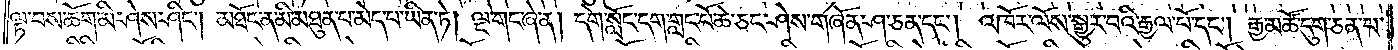ལྟ་བས་ཆོག་མི་ཤེས་ཤིང༌། མཐོང་ན་མི་མཐུན་པ་མེད་པ་ཡིན་ཏེ། ལྔ་གང་ཞེ་ན། དགེ་སློང་དག་གླང་པོ་ཆེ་ཅང་ཤེས་གཞོན་ཤ་ཅན་དང༌། འཁོར་ལོས་སྒྱུར་བའི་རྒྱལ་པོ་དང༌། རྒྱ་མཚོ་དུག་ཅན་པ་
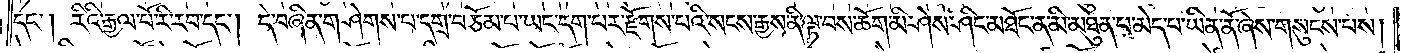དང༌། རིའི་རྒྱལ་པོ་རི་རབ་དང༌། དེ་བཞིན་གཤེགས་པ་དགྲ་བཅོམ་པ་ཡང་དག་པར་རྫོགས་པའི་སངས་རྒྱས་ནི་ལྟ་བས་ཆོག་མི་ཤེས་ཤིང་མཐོང་ན་མི་མཐུན་པ་མེད་པ་ཡིན་ནོ་ཞེས་གསུངས་པས།
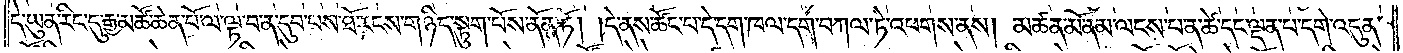དེ་ཡུན་རིང་དུ་རྒྱ་མཚོ་ཆེན་པོ་ལ་ལྟ་བ་ན་དུབ་པས་ཐོ་རངས་གཉིད་སྟུག་པོས་ནོན་ཏོ། །དེ་ནས་ཚོང་པ་དེ་དག་ཁལ་དག་བཀལ་ཏེ་འཕགས་ནས། མཚན་མོ་ནམ་ལངས་པ་ན་ཚེ་དང་ལྡན་པ་དགེ་འདུན་
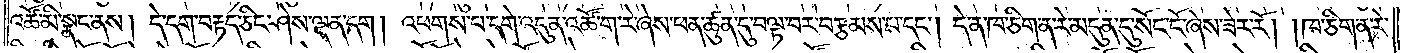འཚོ་མི་སྣང་ནས། དེ་དག་བརྟད་ཅིང་ཤེས་ལྡན་དག། འཕགས་པ་དགེ་འདུན་འཚོ་ག་རེ་ཞེས་ཕན་ཚུན་དུ་བལྟ་བར་བརྩམས་པ་དང༌། དེ་ན་ཁ་ཅིག་ན་རེ་མདུན་དུ་སོང་ངོ་ཞེས་ཟེར་རོ། །ཁ་ཅིག་ན་རེ་
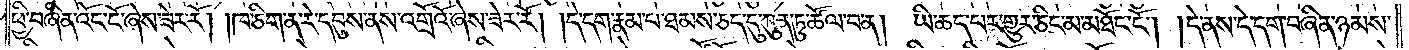ཕྱི་བཞིན་འོང་ངོ་ཞེས་ཟེར་རོ། །ཁ་ཅིག་ན་རེ་དབུས་ནས་འགྲོའོ་ཞེས་ཟེར་རོ། །དེ་དག་རྣམ་པ་ཐམས་ཅད་དུ་ཀུན་ཏུ་ཚོལ་བ་ན། ཡི་ཆད་པར་གྱུར་ཅིང་མ་མཐོང་ངོ༌། །དེ་ནས་དེ་དག་བཞིན་ཉམས་
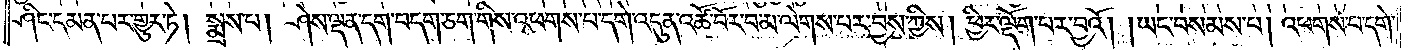ཤིང་དམན་པར་གྱུར་ཏེ། སྨྲས་པ། ཤེས་ལྡན་དག་བདག་ཅག་གིས་འཕགས་པ་དགེ་འདུན་འཚོ་བོར་བ་མ་ལེགས་པར་བྱས་ཀྱིས། ཕྱིར་ལྡོག་པར་བྱའོ། །ཡང་བསམས་པ། འཕགས་པ་དགེ་
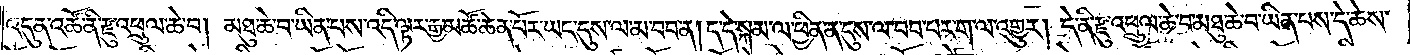འདུན་འཚོ་ནི་རྫུ་འཕྲུལ་ཆེ་བ། མཐུ་ཆེ་བ་ཡིན་པས་འདི་ལྟར་རྒྱ་མཚོ་ཆེན་པོར་ཡང་དུས་ལ་མ་བབ་ན། ད་དེ་སྐམ་ལ་ཕྱིན་ན་དུས་ལ་བབ་པར་ག་ལ་འགྱུར། དེ་ནི་རྫུ་འཕྲུལ་ཆེ་བ་མཐུ་ཆེ་བ་ཡིན་པས་དེ་ཆེས་
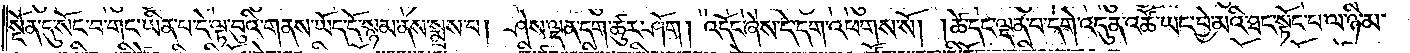སྔོན་དུ་སོང་བ་གང་ཡིན་པ་དེ་ལྟ་བུའི་གནས་ཡོད་དོ་སྙམ་ནས་སྨྲས་པ། ཤེས་ལྡན་དག་ཚུར་ཤོག། འདོང་ཞེས་དེ་དག་འཕགས་སོ། །ཚེ་དང་ལྡན་པ་དགེ་འདུན་འཚོ་ཡང་བྱེ་མའི་ཐང་སྟོང་པ་ལ་ཉི་མ་
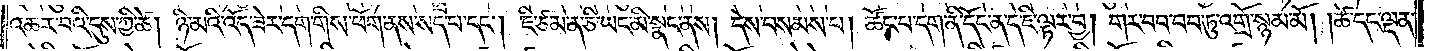འཆར་བའི་དུས་ཀྱི་ཚེ། ཉི་མའི་འོད་ཟེར་དག་གིས་ཕོག་ནས་སད་པ་དང༌། ཇི་ཙམ་ན་ཅི་ཡང་མི་སྣང་ནས། དེས་བསམས་པ། ཚོང་པ་དག་ནི་དོང་ན་དེ་ཇི་ལྟར་བྱ། གར་བབ་བབ་ཏུ་འགྲོ་སྙམ་མོ། །ཚེ་དང་ལྡན་
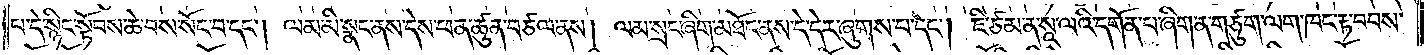པ་དེ་སྙིང་སྟོབས་ཆེ་བས་སོང་བ་དང༌། ལམ་མི་སྣང་ནས་དེས་ཕན་ཚུན་བཙལ་ནས། ལམ་སྲང་ཞིག་མཐོང་ནས་དེ་དེར་ཞུགས་པ་དང༌། ཇི་ཙམ་ན་སཱ་ལའི་དགོན་པ་ཞིག་ན་གཙུག་ལག་ཁང་རྟ་བབས་
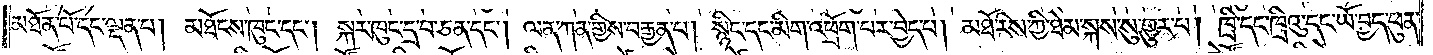མཐོན་པོ་དང་ལྡན་པ། མཐོངས་ཁུང་དང༌། སྐར་ཁུང་དྲ་བ་ཅན་དང༌། ལན་ཀན་གྱིས་བརྒྱན་པ། སྙིང་དང་མིག་འཕྲོག་པར་བྱེད་པ། མཐོ་རིས་ཀྱི་ཐེམ་སྐས་སུ་གྱུར་པ། ཁྲི་དང་ཁྲིའུ་དང་ཡོ་བྱད་ཕུན་
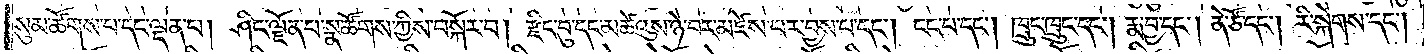སུམ་ཚོགས་པ་དང་ལྡན་པ། ཤིང་ལྗོན་པ་སྣ་ཚོགས་ཀྱིས་བསྐོར་བ། རྫིང་བུ་དང་མཚེའུས་ཉེ་བར་མཛེས་པར་བྱས་པ་དང༌། ངང་པ་དང༌། ཁྲུང་ཁྲུང་དང༌། རྨ་བྱ་དང༌། ནེ་ཙོ་དང༌། རི་སྐེགས་དང༌།
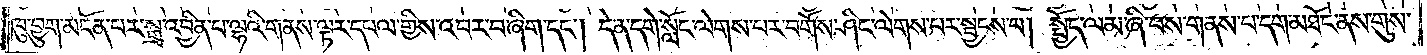ཁུ་བྱུག་མངོན་པར་སྒྲ་འབྱིན་པ་ལྷའི་གནས་ལྟར་དཔལ་གྱིས་འབར་བ་ཞིག་དང༌། དེ་ན་དགེ་སློང་ལེགས་པར་བགོས་ཤིང་ལེགས་པར་སྦྱངས་པ། སྤྱོད་ལམ་ཞི་བས་གནས་པ་དག་མཐོང་ནས་གུས་
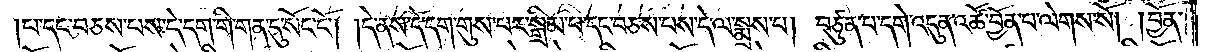པ་དང་བཅས་པས་དེ་དག་གི་གན་དུ་སོང་ངོ༌། །དེ་ནས་དེ་དག་གུས་པར་སྒྲིམ་པ་དང་བཅས་པས་དེ་ལ་སྨྲས་པ། བཙུན་པ་དགེ་འདུན་འཚོ་བྱོན་པ་ལེགས་སོ། །བྱོན་
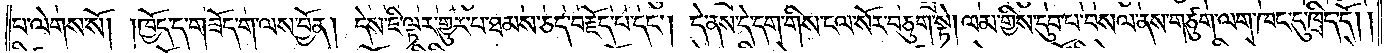པ་ལེགས་སོ། །ཁྱོད་ད་གཟོད་ག་ལས་བྱོན། དེས་ཇི་ལྟར་གྱུར་པ་ཐམས་ཅད་བརྗོད་པ་དང༌། དེ་ནས་དེ་དག་གིས་ངལ་སོར་བཅུག་སྟེ། ལམ་གྱིས་དུབ་པ་བསལ་ནས་གཙུག་ལག་ཁང་དུ་ཁྲིད་དོ། །
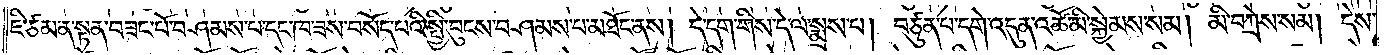ཇི་ཙམ་ན་སྟན་བཟང་པོ་བཤམས་པ་དང་ཁ་ཟས་བསོད་པའི་སྤྱི་བུངས་བཤམས་པ་མཐོང་ནས། དེ་དག་གིས་དེ་ལ་སྨྲས་པ། བཙུན་པ་དགེ་འདུན་འཚོ་མི་སྐྱེམས་སམ། མི་བཀྲེས་སམ། དེས་
